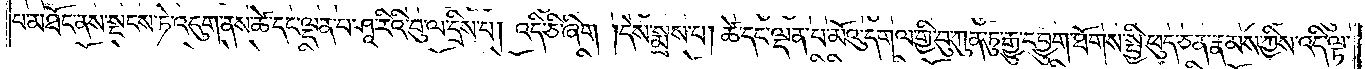པ་མཐོང་ནས་སྡངས་ཏེ་འདུག་ནས་ཚེ་དང་ལྡན་པ་ཤཱ་རིའི་བུ་ལ་དྲིས་པ། འདི་ཅི་ཞིག །དེས་སྨྲས་པ། ཚེ་དང་ལྡན་པ་མོའུ་དགལ་གྱི་བུ་ཀུན་ཏུ་རྒྱུ་དབྱུག་ཐོགས་སྤྱི་ཕུད་ཅན་རྣམས་ཀྱིས་འདི་ལྟ་
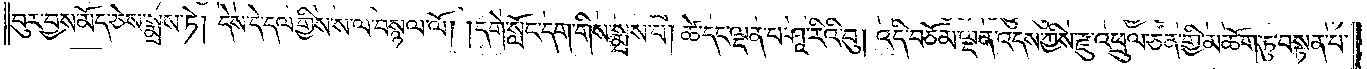བུར་བྱས་མོད་ཅེས་སྨྲས་ཏེ། དེས་དེ་དལ་གྱིས་ས་ལ་བསྙལ་ལོ། །དགེ་སློང་དག་གིས་སྨྲས་པ། ཚེ་དང་ལྡན་པ་ཤཱ་རིའི་བུ། འདི་བཅོམ་ལྡན་འདས་ཀྱིས་རྫུ་འཕྲུལ་ཅན་གྱི་མཆོག་ཏུ་བསྟན་པ་
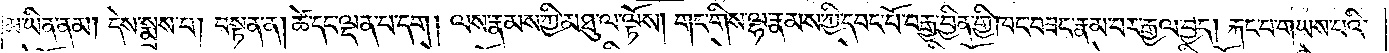མ་ཡིན་ནམ། དེས་སྨྲས་པ། བསྟན་ན། ཚེ་དང་ལྡན་པ་དག། ལས་རྣམས་ཀྱི་མཐུ་ལ་ལྟོས། གང་གིས་ལྷ་རྣམས་ཀྱི་དབང་པོ་བརྒྱ་བྱིན་གྱི་ཁང་བཟང་རྣམ་པར་རྒྱལ་བྱེད། རྐང་པ་གཡས་པའི་
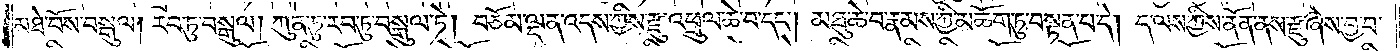མཐེ་བོས་བསྒུལ། རབ་ཏུ་བསྒུལ། ཀུན་ཏུ་རབ་ཏུ་བསྒུལ་ཏེ། བཅོམ་ལྡན་འདས་ཀྱིས་རྫུ་འཕྲུལ་ཆེ་བ་དང༌། མཐུ་ཆེ་བ་རྣམས་ཀྱི་མཆོག་ཏུ་བསྟན་པ་དེ། ད་ལས་ཀྱིས་ནོན་ནས་རྫུ་ཞེས་བྱ་བ་
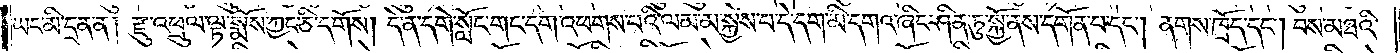ཡང་མི་དྲན་ན། རྫུ་འཕྲུལ་ལྟ་སྨོས་ཀྱང་ཅི་དགོས། དེ་ན་དགེ་སློང་གང་དག་འཕགས་པའི་ལམ་མ་སྐྱེས་པ་དེ་དག་མི་དགའ་ཞིང་ཤིན་ཏུ་སྐྱོ་ནས་དགོན་པ་དང༌། ནགས་ཁྲོད་དང༌། བས་མཐའི་
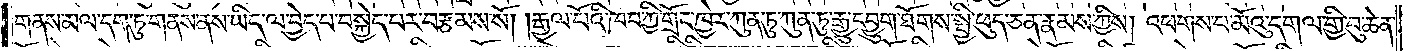གནས་མལ་དག་ཏུ་གནས་ནས་ཡིད་ལ་བྱེད་པ་བསྐྱེད་པར་བརྩམས་སོ། །རྒྱལ་པོའི་ཁབ་ཀྱི་གྲོང་ཁྱེར་ཀུན་ཏུ་ཀུན་ཏུ་རྒྱུ་དབྱུག་ཐོགས་སྤྱི་ཕུད་ཅན་རྣམས་ཀྱིས། འཕགས་པ་མོའུ་དགལ་གྱི་བུ་ཆེན་
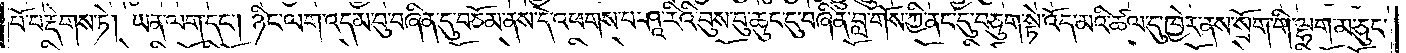པོ་བརྡེགས་ཏེ། ཡན་ལག་དང༌། ཉིང་ལག་འདམ་བུ་བཞིན་དུ་བཅོམ་ནས་དེ་འཕགས་པ་ཤཱ་རིའི་བུས་བུ་ཆུང་ངུ་བཞིན་བླ་གོས་ཀྱི་ནང་དུ་བཅུག་སྟེ་འོད་མའི་ཚལ་དུ་ཁྱེར་ནས་སྲོག་གི་ལྷག་མ་ཅུང་
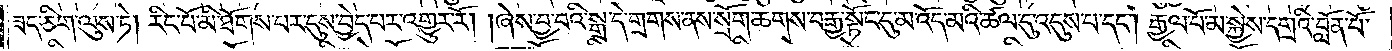ཟད་ཅིག་ལུས་ཏེ། རིང་པོ་མི་ཐོགས་པར་དུས་བྱེད་པར་འགྱུར་རོ། །ཞེས་བྱ་བའི་སྒྲ་དེ་གྲགས་ནས་སྲོག་ཆགས་བརྒྱ་སྟོང་དུ་མ་འོད་མའི་ཚལ་དུ་འདུས་པ་དང༌། རྒྱལ་པོ་མ་སྐྱེས་དགྲའི་བློན་པོ་
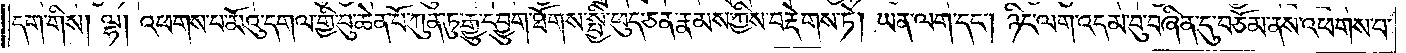དག་གིས། ལྷ། འཕགས་པ་མོའུ་དགལ་གྱི་བུ་ཆེན་པོ་ཀུན་ཏུ་རྒྱུ་དབྱུག་ཐོགས་སྤྱི་ཕུད་ཅན་རྣམས་ཀྱིས་བརྡེགས་ཏེ། ཡན་ལག་དང༌། ཉིང་ལག་འདམ་བུ་བཞིན་དུ་བཅོམ་ནས་འཕགས་པ་
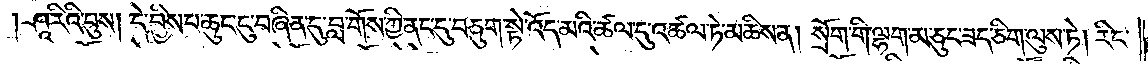ཤཱ་རིའི་བུས། དེ་བྱིས་པ་ཆུང་ངུ་བཞིན་དུ་བླ་གོས་ཀྱི་ནང་དུ་བཅུག་སྟེ་འོད་མའི་ཚལ་དུ་འཚལ་ཏེ་མཆིས་ན། སྲོག་གི་ལྷག་མ་ཅུང་ཟད་ཅིག་ལུས་ཏེ། རིང་
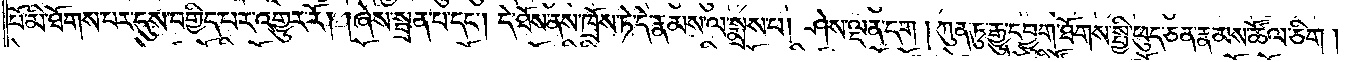པོ་མི་ཐོགས་པར་དུས་བགྱིད་པར་འགྱུར་རོ། །ཞེས་སྦྲན་པ་དང༌། དེ་ཐོས་ནས་ཁྲོས་ཏེ་དེ་རྣམས་ལ་སྨྲས་པ། ཤེས་ལྡན་དག །ཀུན་ཏུ་རྒྱུ་དབྱུག་ཐོགས་སྤྱི་ཕུད་ཅན་རྣམས་ཚོལ་ཅིག།
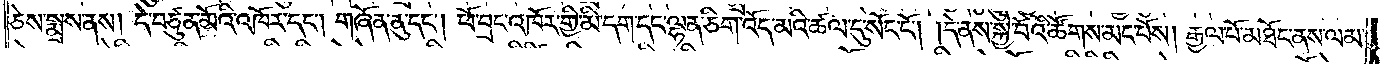ཅེས་སྨྲས་ནས། དེ་བཙུན་མོའི་འཁོར་དང༌། གཞོན་ནུ་དང༌། ཕོ་བྲང་འཁོར་གྱི་མི་དག་དང་ལྷན་ཅིག་འོད་མའི་ཚལ་དུ་སོང་ངོ༌། །དེ་ནས་སྐྱེ་བོའི་ཚོགས་མང་པོས། རྒྱལ་པོ་མཐོང་ནས་ལམ་
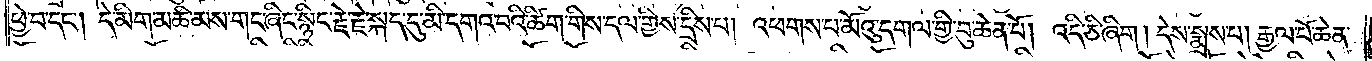ཕྱེ་བ་དང༌། དེ་མིག་མཆི་མས་གང་ཞིང་སྙིང་རྗེ་རྗེ་སྐད་དུ་མི་དགའ་བའི་ཚིག་གིས་དལ་གྱིས་དྲིས་པ། འཕགས་པ་མོའུ་དགལ་གྱི་བུ་ཆེན་པོ། །འདི་ཅི་ཞིག། དེས་སྨྲས་པ། རྒྱལ་པོ་ཆེན་
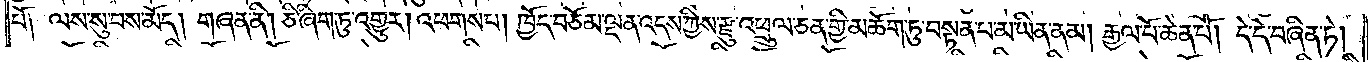པོ། ལས་སུ་བས་མོད། གཞན་ནི། ཅི་ཞིག་ཏུ་འགྱུར། འཕགས་པ། ཁྱོད་བཅོམ་ལྡན་འདས་ཀྱིས་རྫུ་འཕྲུལ་ཅན་གྱི་མཆོག་ཏུ་བསྟན་པ་མ་ཡིན་ནམ། རྒྱལ་པོ་ཆེན་པོ། དེ་དེ་བཞིན་ཏེ།
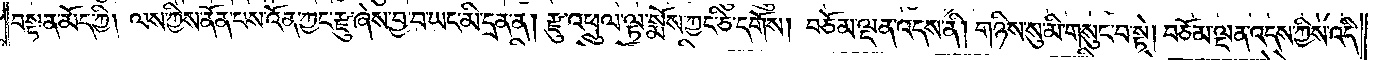བསྟན་མོད་ཀྱི། ལས་ཀྱིས་ནོན་པས་འོན་ཀྱང་རྫུ་ཞེས་བྱ་བ་ཡང་མི་དྲན་ན། རྫུ་འཕྲུལ་ལྟ་སྨོས་ཀྱང་ཅི་དགོས། བཅོམ་ལྡན་འདས་ནི། གཉིས་སུ་མི་གསུང་བ་སྟེ། བཅོམ་ལྡན་འདས་ཀྱིས་འདི་
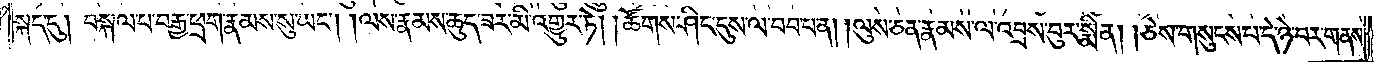སྐད་དུ། བསྐལ་པ་བརྒྱ་ཕྲག་རྣམས་སུ་ཡང༌། །ལས་རྣམས་ཆུད་ཟར་མི་འགྱུར་ཏེ། །ཚོགས་ཤིང་དུས་ལ་བབ་པ་ན། །ལུས་ཅན་རྣམས་ལ་འབྲས་བུར་སྨིན། །ཅེས་གསུངས་པ་དེ་ཉེ་བར་གནས་
